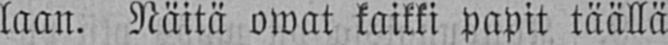laan. Näitä owat kaikki papit täällä
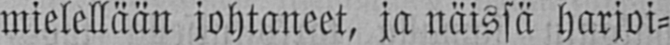mielellään johtaneet, ja näissä harjoi-
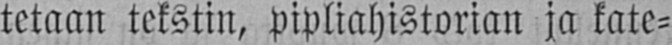tetaan tekstin, pipliahistorian ja kate-
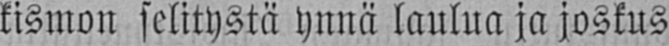kismon selitystä ynnä laulua ja joskus
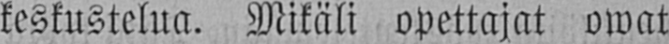keskustelua. Mikäli opettajat owat
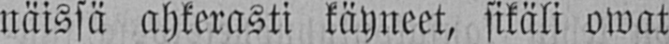näissä ahkerasti käyneet, sikäli owat
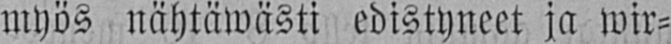myös nähtäwästi edistyneet ja wir-
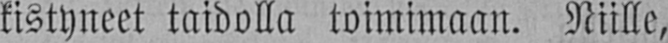kistyneet taidolla toimimaan. Niille,
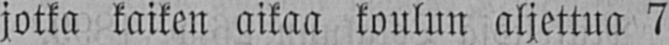jotka kaiken aikaa koulun aljettua 7
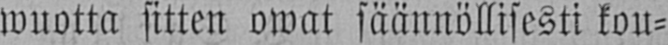wuotta sitten owat säännöllisesti kou-
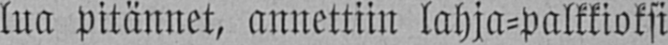lua pitännet, annettiin lahja-palkkioksi
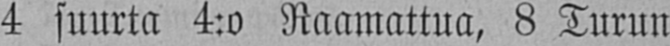4 suurta 4:o Raamattua, 8 Turun
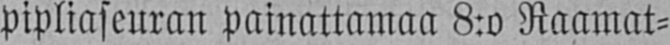pipliaseuran painattamaa 8:o Raamat-
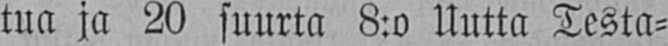tua ja 20 suurta 8:o Uutta Testa-
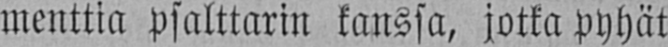menttia psalttarin kanssa, jotka pyhät
